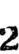2
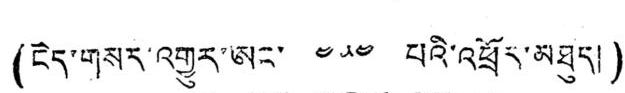(ངེད་གསར་འགྱུར་ཨང་ ༤༥༤ པའི་འཕྲོར་མཐུད།)
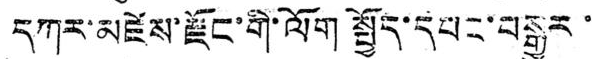དཀར་མཛེས་རྫོང་གི་ལོག སྤྱོད་དབང་བསྒྱུར་་
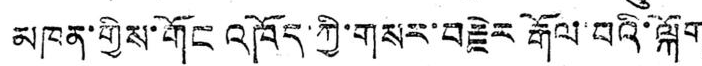མཁན་གྱིས་གོང འཁོད་ཀྱི་གསར་བརྗེར རྒོལ བའི་ལྐོག
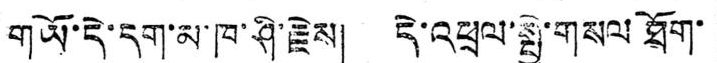གཡོ་དེ་དག་མ་ཁ་ཤི་རྗེས། དེ་འཕྲལ་སྤྱེ་གསལ ཐོག་
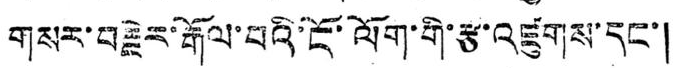གསར་བརྗེར་རྒོལ་བའི་ངོ་ལོག་གི་རྩ་འཛུགས་དང་།
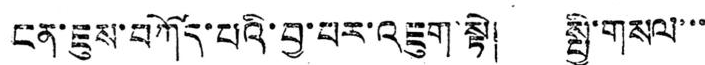ངན་ཇུས་བཀོད་པའི་བྱ་པར་འཇུག་སྟེ། སྤྱི་གསལ་་་
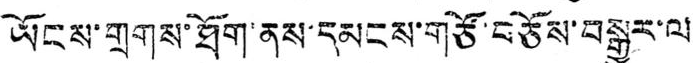ཡོངས་གྲགས་ཐོག་ནས་དམངས་གཙོ་བཅོས་བསྒྱུར་ལ་
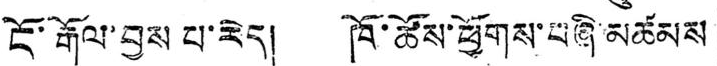ངོ་རྒོལ་བྱས པ་རེད། ཁོ་ཚོས་ཕྱོགས་བཞི་མཚམས
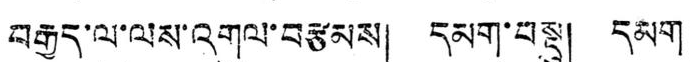བརྒྱད་ལ་ལས་འགུལ་བརྩམས། དམག་བསྡུ། དམག་
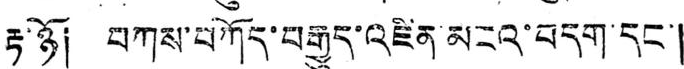རྟ་ཉོ། བཀས་བཀོད་བརྒྱུད་འཛིན་མངའ་བདག་དང་།
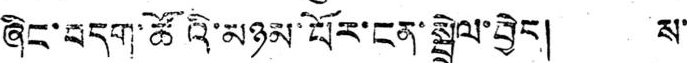ཞིང་བདག་ཚོའི་མཉམ་པོར་ངན་སྦྲེལ་བྱེད། ས་་
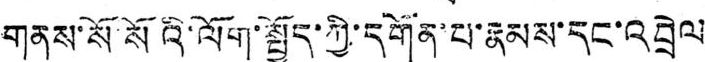གནས་སོ་སོའི་ལོག་སྤྱོད་ཀྱི་དགོན་པ་རྣམས་དང་འབྲེལ
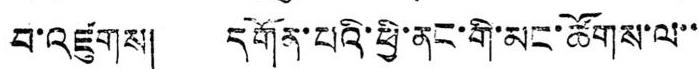བ་འཛུགས། དགོན་པའི་ཕྱི་ནང་གི་མང་ཚོགས་ལ་་་
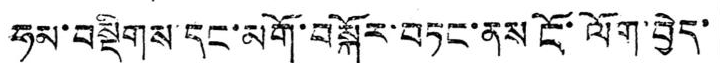ཧམ་བསྡིགས་དང་མགོ་བསྐོར་བཏང་ནས ངོ་ལོག་བྱེད་
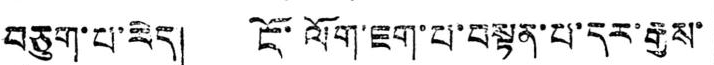བཅུག་པ་རེད། ངོ་ལོག་ཇག་པ་བསྟན་པ་དར་རྒྱས་
